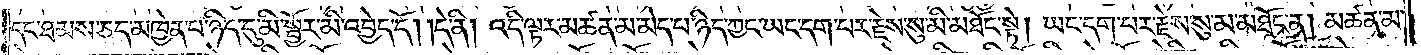དང་ཐམས་ཅད་མཁྱེན་པ་ཉིད་དུ་མི་སྦྱོར་མི་འབྱེད་དོ། །དེ་ནི། འདི་ལྟར་མཚན་མ་མེད་པ་ཉིད་ཀྱང་ཡང་དག་པར་རྗེས་སུ་མི་མཐོང་སྟེ། ཡང་དག་པར་རྗེས་སུ་མ་མཐོང་ན། མཚན་མ་
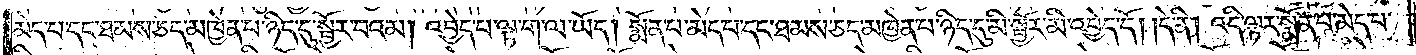མེད་པ་དང་ཐམས་ཅད་མཁྱེན་པ་ཉིད་དུ་སྦྱོར་བའམ། འབྱེད་པ་ལྟ་ག་ལ་ཡོད། སྨོན་པ་མེད་པ་དང་ཐམས་ཅད་མཁྱེན་པ་ཉིད་དུ་མི་སྦྱོར་མི་འབྱེད་དོ། །དེ་ནི། འདི་ལྟར་སྨོན་པ་མེད་པ་
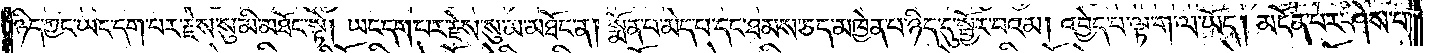ཉིད་ཀྱང་ཡང་དག་པར་རྗེས་སུ་མི་མཐོང་སྟེ། ཡང་དག་པར་རྗེས་སུ་མ་མཐོང་ན། སྨོན་པ་མེད་པ་དང་ཐམས་ཅད་མཁྱེན་པ་ཉིད་དུ་སྦྱོར་བའམ། འབྱེད་པ་ལྟ་ག་ལ་ཡོད། མངོན་པར་ཤེས་པ་
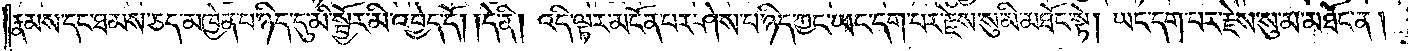རྣམས་དང་ཐམས་ཅད་མཁྱེན་པ་ཉིད་དུ་མི་སྦྱོར་མི་འབྱེད་དོ། །དེ་ནི། འདི་ལྟར་མངོན་པར་ཤེས་པ་ཉིད་ཀྱང་ཡང་དག་པར་རྗེས་སུ་མི་མཐོང་སྟེ། ཡང་དག་པར་རྗེས་སུ་མ་མཐོང་ན།
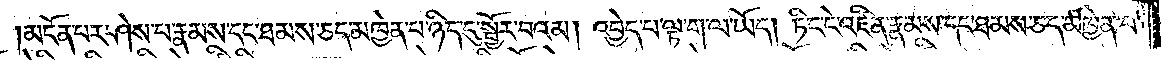མངོན་པར་ཤེས་པ་རྣམས་དང་ཐམས་ཅད་མཁྱེན་པ་ཉིད་དུ་སྦྱོར་བའམ། འབྱེད་པ་ལྟ་ག་ལ་ཡོད། ཏིང་ངེ་འཛིན་རྣམས་དང་ཐམས་ཅད་མཁྱེན་པ་
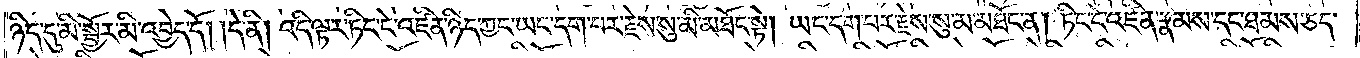ཉིད་དུ་མི་སྦྱོར་མི་འབྱེད་དོ། །དེ་ནི། འདི་ལྟར་ཏིང་ངེ་འཛིན་ཉིད་ཀྱང་ཡང་དག་པར་རྗེས་སུ་མི་མཐོང་སྟེ། ཡང་དག་པར་རྗེས་སུ་མ་མཐོང་ན། ཏིང་ངེ་འཛིན་རྣམས་དང་ཐམས་ཅད་
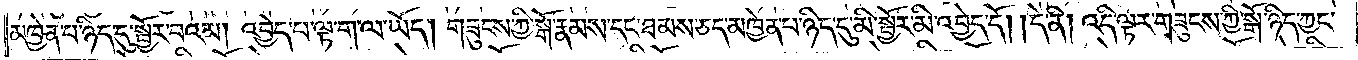མཁྱེན་པ་ཉིད་དུ་སྦྱོར་བའམ། འབྱེད་པ་ལྟ་ག་ལ་ཡོད། གཟུངས་ཀྱི་སྒོ་རྣམས་དང་ཐམས་ཅད་མཁྱེན་པ་ཉིད་དུ་མི་སྦྱོར་མི་འབྱེད་དོ། །དེ་ནི། འདི་ལྟར་གཟུངས་ཀྱི་སྒོ་ཉིད་ཀྱང་
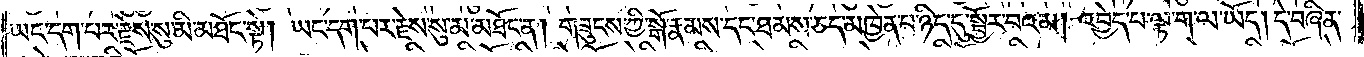ཡང་དག་པར་རྗེས་སུ་མི་མཐོང་སྟེ། ཡང་དག་པར་རྗེས་སུ་མ་མཐོང་ན། གཟུངས་ཀྱི་སྒོ་རྣམས་དང་ཐམས་ཅད་མཁྱེན་པ་ཉིད་དུ་སྦྱོར་བའམ། འབྱེད་པ་ལྟ་ག་ལ་ཡོད། དེ་བཞིན་
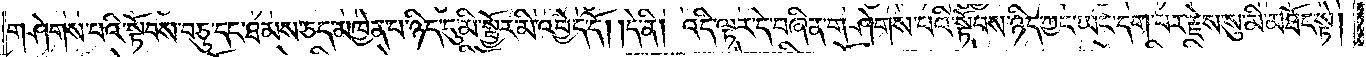གཤེགས་པའི་སྟོབས་བཅུ་དང་ཐམས་ཅད་མཁྱེན་པ་ཉིད་དུ་མི་སྦྱོར་མི་འབྱེད་དོ། །དེ་ནི། འདི་ལྟར་དེ་བཞིན་གཤེགས་པའི་སྟོབས་ཉིད་ཀྱང་ཡང་དག་པར་རྗེས་སུ་མི་མཐོང་སྟེ།
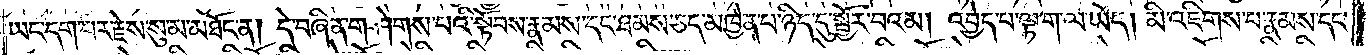ཡང་དག་པར་རྗེས་སུ་མ་མཐོང་ན། དེ་བཞིན་གཤེགས་པའི་སྟོབས་རྣམས་དང་ཐམས་ཅད་མཁྱེན་པ་ཉིད་དུ་སྦྱོར་བའམ། འབྱེད་པ་ལྟ་ག་ལ་ཡོད། མི་འཇིགས་པ་རྣམས་དང་
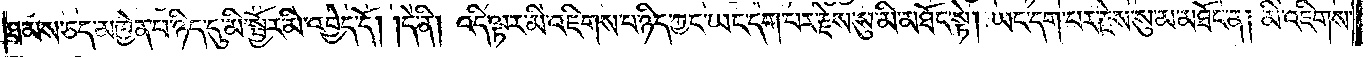ཐམས་ཅད་མཁྱེན་པ་ཉིད་དུ་མི་སྦྱོར་མི་འབྱེད་དོ། །དེ་ནི། འདི་ལྟར་མི་འཇིགས་པ་ཉིད་ཀྱང་ཡང་དག་པར་རྗེས་སུ་མི་མཐོང་སྟེ། ཡང་དག་པར་རྗེས་སུ་མ་མཐོང་ན། མི་འཇིགས་
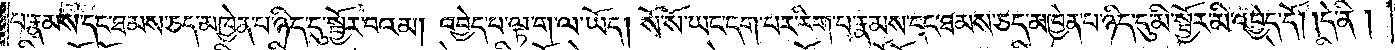པ་རྣམས་དང་ཐམས་ཅད་མཁྱེན་པ་ཉིད་དུ་སྦྱོར་བའམ། འབྱེད་པ་ལྟ་ག་ལ་ཡོད། སོ་སོ་ཡང་དག་པར་རིག་པ་རྣམས་དང་ཐམས་ཅད་མཁྱེན་པ་ཉིད་དུ་མི་སྦྱོར་མི་འབྱེད་དོ། །དེ་ནི།
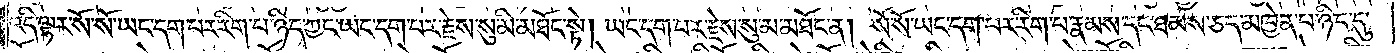འདི་ལྟར་སོ་སོ་ཡང་དག་པར་རིག་པ་ཉིད་ཀྱང་ཡང་དག་པར་རྗེས་སུ་མི་མཐོང་སྟེ། ཡང་དག་པར་རྗེས་སུ་མ་མཐོང་ན། སོ་སོ་ཡང་དག་པར་རིག་པ་རྣམས་དང་ཐམས་ཅད་མཁྱེན་པ་ཉིད་དུ་
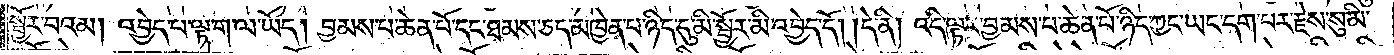སྦྱོར་བའམ། འབྱེད་པ་ལྟ་ག་ལ་ཡོད། བྱམས་པ་ཆེན་པོ་དང་ཐམས་ཅད་མཁྱེན་པ་ཉིད་དུ་མི་སྦྱོར་མི་འབྱེད་དོ། །དེ་ནི། འདི་ལྟར་བྱམས་པ་ཆེན་པོ་ཉིད་ཀྱང་ཡང་དག་པར་རྗེས་སུ་མི་
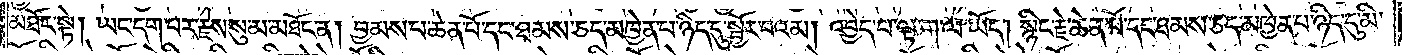མཐོང་སྟེ། ཡང་དག་པར་རྗེས་སུ་མ་མཐོང་ན། བྱམས་པ་ཆེན་པོ་དང་ཐམས་ཅད་མཁྱེན་པ་ཉིད་དུ་སྦྱོར་བའམ། འབྱེད་པ་ལྟ་ག་ལ་ཡོད། སྙིང་རྗེ་ཆེན་པོ་དང་ཐམས་ཅད་མཁྱེན་པ་ཉིད་དུ་མི་
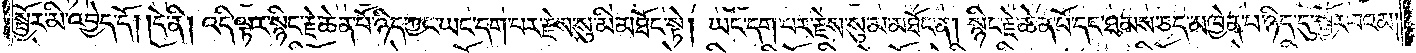སྦྱོར་མི་འབྱེད་དོ། །དེ་ནི། འདི་ལྟར་སྙིང་རྗེ་ཆེན་པོ་ཉིད་ཀྱང་ཡང་དག་པར་རྗེས་སུ་མི་མཐོང་སྟེ། ཡང་དག་པར་རྗེས་སུ་མ་མཐོང་ན། སྙིང་རྗེ་ཆེན་པོ་དང་ཐམས་ཅད་མཁྱེན་པ་ཉིད་དུ་སྦྱོར་བའམ།
